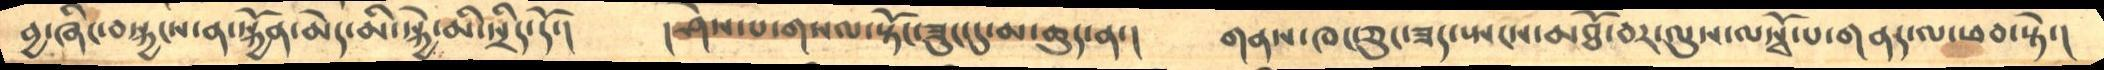བྱ་ཞིང་བསྐྱངས་ན་སྐྱོན་མེད་མི་སྐྱེ་མི་སྲིད་དོ་།    །ཤེས་པ་གསལ་སྟོང་ཟུང་དུ་མ་ཆུད་ན་།    གནས་ཁང་ཅུང་ཟད་སྤངས་མཐོ་བར་ལུས་ལསྭོ་པ་གནད་ལ་ཕབ་སྟེ་།
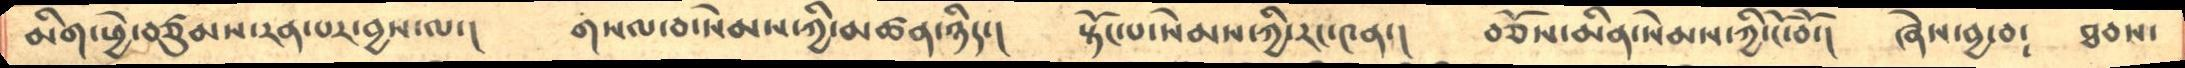མིག་ཕྱེ་བཙུམས་རན་པར་བྱས་ལ་།      གསལ་བ་སེམས་ཀྱི་མཚན་ཉིད་།   སྟོང་པ་སེམས་ཀྱི་རང་༤ན་།    བཅོས་མིན་སེམས་ཀྱི་ངོ་བོ་།    ཞེས་བྱ་བ༴   ཐབས་
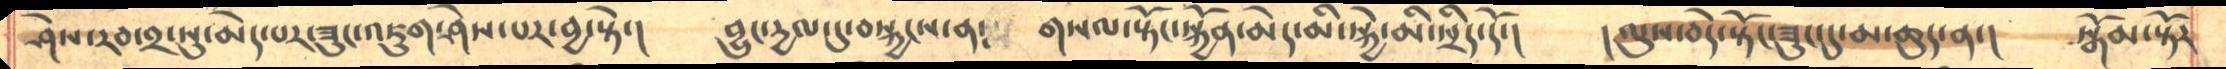ཤེས་རབ་༢་སུ་མེད་པར་ཟུང་འཇུག་ཤེས་པར་བྱ་སྟེ་།   བྱུང་དྱལ་དུ་བསྐྱངས་ན༴   གསལ་སྟོང་སྐྱོན་མེད་མི་སྐྱེ་མི་སྲིད་དོ་།    ། ལུས་བདེ་སྟོང་ཟུང་དུ་མ་ཆུད་ན་།    སྒོམ་སྟོར
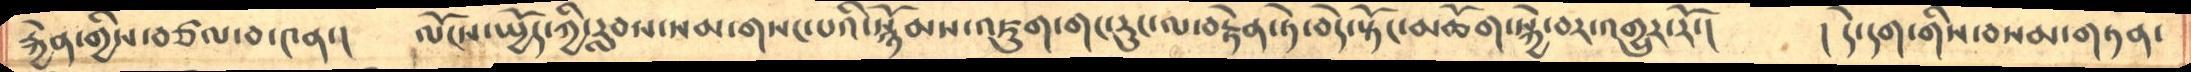རྐྱེན་གྱིས་བཙལ་བ་༤ན་།    ལོངས་སྤྱོད་ཀྱི་རླབས་སམ་གསང་པའི་སྙོམས་འཇུག་གང་རུང་ལ་བརྟེན་ཏེ་བདེ་སྟོང་མཆོག་སྐྱེ་བར་འགྱུར་རོ་།   །དེ་དག་གིས་བསམ་གཏན་
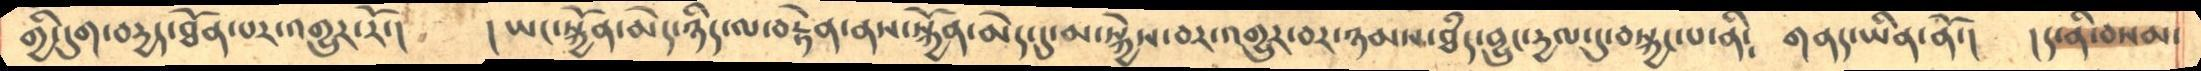གྱི་དུག་བདྱད་ཐོན་པར་འགྱུར་རོ་།   །ཡང་སྐྱོན་མེད་ཉིད་ལ་བརྟེན་ནས་སྐྱོན་མེད་དུ་མ་སྐྱེས་བར་འགྱུར་བར་ཉམས་ཐཾད་བྱུང་དྱལ་དུ་བསྐྱང་པ་ནི༴   གནད་ཡིན་ནོ་།  །ད་ནི་བསམ་
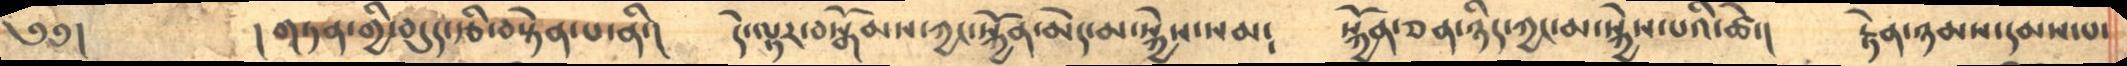༄༅།      །གཏན་གྱི་བདུད་རྩི་བསྟེན་པ་ནི་།    དེ་ལྟར་བསྒོམས་ཀྱང་སྐྱོན་མེད་མ་སྐྱེས་སམ༴    སྐྱོན་ཅན་ཉིད་ཀྱང་མ་སྐྱེས་པའི་ཚེ་།   རྟེན་ཉམས་དམས་པ་
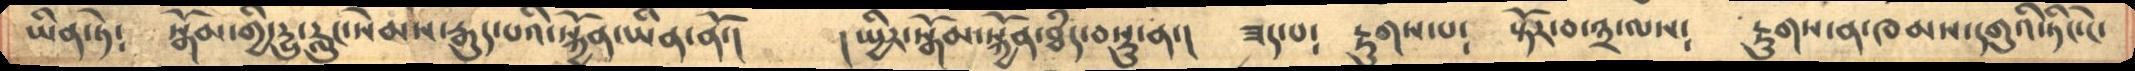ཡིན་ཏེ༴   སྒོམ་གྱི་དྱུ་རླུང་སེམས་རྒུད་པའི་སྐྱོན་ཡིན་ནོ་།      །ཡྱིར་སྒོམ་སྐྱོན་ཐཾད་བསྡུ་ན་།  ཟད་པ༴  རྟུགས་པ༴  སྟོར་བ་༣་ལས༴  རྟུགས་ན་ཁམས་དགུའི་ཏིང་ངེ་
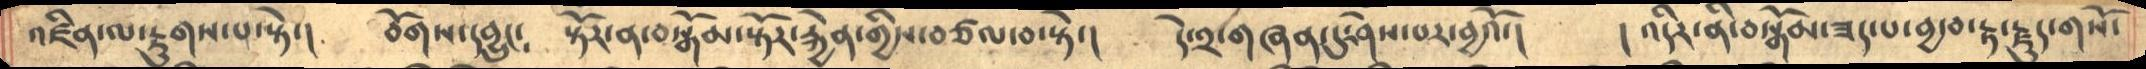འཛིན་ལ་རྟུགས་པ་སྟེ་།   བོགས་དབྱུང༴   སྟོར་ན་བསྒོམ་སྟོར་རྐྱེན་གྱིས་བཙལ་བ་སྟེ་།    དེ་༢་གཞན་དུ་ཤེས་པར་བྱའོ་།     །འདིར་ནི་བསྒོམ་ཟད་པ་བྱ་བ་རྟ་རྗུད་གསོ་
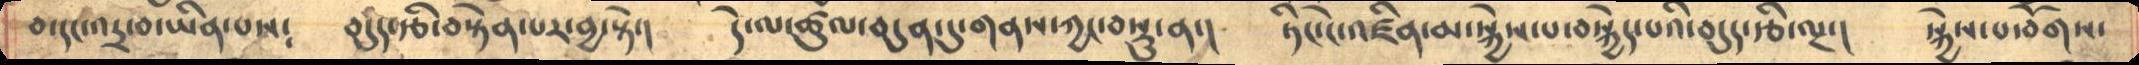བ་དང་འདྲ་བ་ཡིན་པས༴   བདུད་རྩི་བསྟེན་པར་བྱ་སྟེ་།    དེ་ལ་ཚུལ་བདུན་དུ་གནས་ཀྱང་བསྡུ་ན་།    ཏིང་ངེ་འཛིན་མ་སྐྱེས་པ་བསྐྱེད་པའི་བདུད་རྩི་ལྔ་།     སྐྱེས་པ་བོགས་
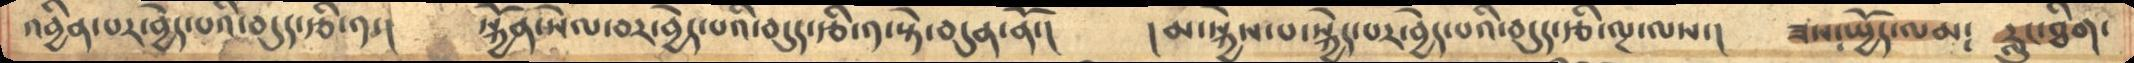འབྱིན་པར་བྱེད་པའི་བདུད་རྩི་༡་།    སྐྱོན་སེལ་བར་བྱེད་པའི་བདུད་རྩི་༡་སྟེ་བདུན་ནོ་།    །་མ་སྐྱེས་པ་སྐྱེད་པར་བྱེད་པའི་བདུད་རྩི་ལྔ་ལས་།    ཟས་ཡྱོད་ལས༴   རླུང་ཐིག་
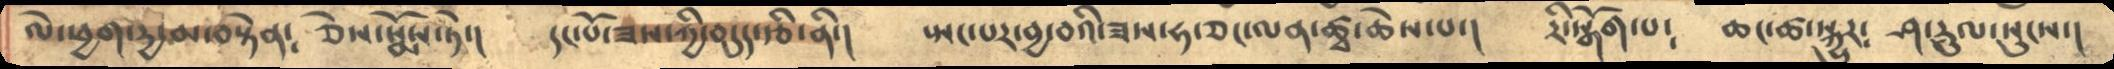ལེ་ཕྱག་དྱ་མ་བསྟེན༴  ཅེས་སྨོས་ཏེ་།     དང་པོ་ཟས་ཀྱི་བདུད་རྩི་ནི་།     སྤང་པར་བྱ་བའི་ཟས་ཧ་ཅང་ལན་ཚྭ་ཆེས་པ་།     རི་སྒོག་པ༴   ཆང་ཚ་སྐྱུར༴   ཤ་རུལ་སུངས་།
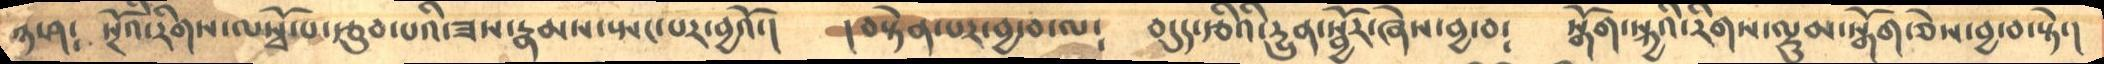ཉ་ཤ༴    སྔོའི་རིགས་ལསྭོ་པ་རྩུབ་པའི་ཟས་རྣམས་སྤང་པར་བྱའོ་།     །བསྟེན་པར་བྱ་བ་ལ༴    བདུད་རྩིའི་དྱུན་སྦྱོར་ཞེས་བྱ་བ༴     སྒོག་སྐྱའི་རིགས་ལྡུམ་སྒོག་ཅེས་བྱ་བ་སྟེ་།
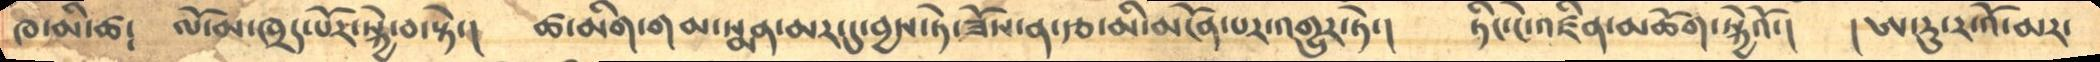ཁ་མི་ཚ༴   ལོ་མ་ཁྲད་པོར་སྐྱེ་བ་སྟེ་།   ཚ་མིག་གམ་སྨན་མར་དུ་བྱས་ཏེ་ཟོས་ན་རྩ་མི་མངོན་པར་འགྱུར་ཏེ་།    ཏིང་ངེ་འཛིན་མཆོག་སྐྱེའོ་།   །ཨ་རུ་ར་འོ་མར་
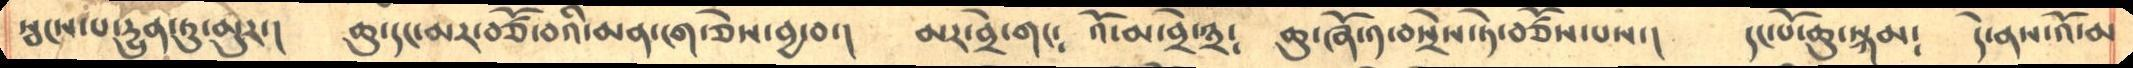སྦངས་པ་དྱུན་དུ་མུར་།    ཆུ་དང་མར་བཙོ་བའི་མན་ངག་ཅེས་བྱ་བ་།    མར་བྲེ་གང༴    འོ་མ་བྲེ་༣༴    ཆུ་ཞོ་༡་བསྲེས་ཏེ་བཙོས་པས་།      དང་པོ་ཆུ་སྐམ༴    དེ་ནས་འོ་མ
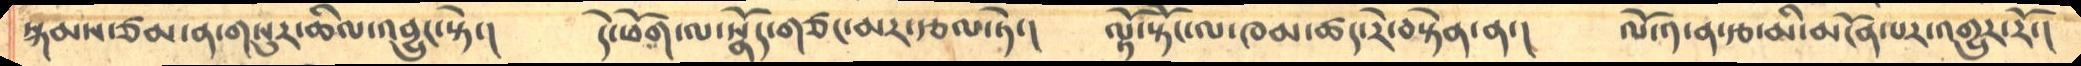སྐམས་ཙམ་ན་གསུར་ཆིལ་འབྱུང་སྟེ་།     དེ་ཕོག་ལ་སྣོད་གཙང་མར་རྩལ་སྟེ་།   ལྟོ་སྟོང་ལ་ཁམ་ཚད་རེ་བསྟེན་ན་།    ལོ་༡་ན་རྩ་མི་མངོན་པར་འགྱུར་རོ་།
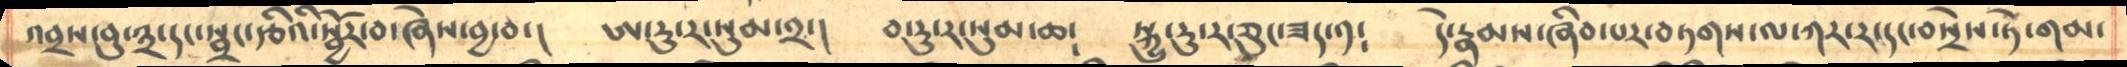འབྲས་བུ་༣་དང་སྦྲང་རྩིའི་སྦྱོར་བ་ཞེས་བྱ་བ་།     ཨ་རུ་ར་སུམ་༢་།    བ་རུ་ར་སུམ་ཆ༴    སྐྱུ་རུ་ར་ཅུང་ཟད་༡༴    དེ་རྣམས་ཞིབ་པར་བཏགས་་ལ་ཀར་ར་དང་བསྲེས་ཏེ་གམ་
